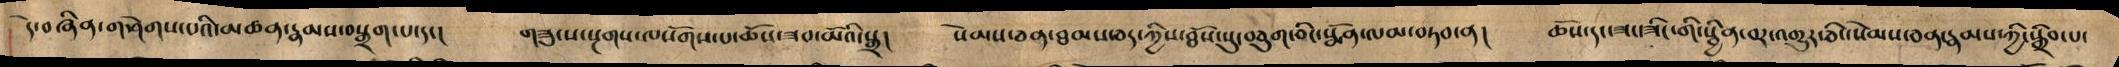དེ་བཞིན་གཤེགས་པའི་མཚན་རྣམས་བསྒྲག་པ་དང། གཟུངས་སྔགས་ལསོགས་པ་ཆོས་ཟབ་མོའི་སྒྲ། སེམས་ཅན་ཐམས་ཅད་ཀྱིས་ཐོས་སུ་བཅུག་ཅིང་སྨོན་ལམ་བཏབ་ན། ཆོས་དང་ཟང་ཟིང་གི་སྦྱིན་བར་འགྱུར་ཅིང་སེམས་ཅན་རྣམས་ཀྱི་སྒྲིབ་པ་
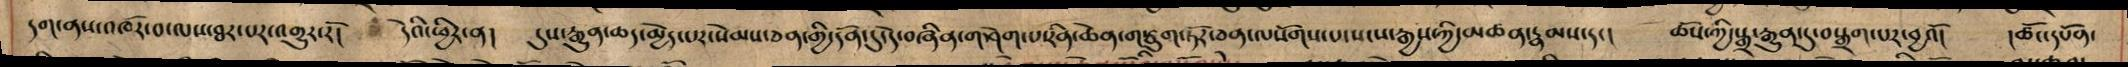དག་ནས་འཁོར་བ་ལས་ཐར་པར་འགྱུར་རོ། དེའི་ཕྱིར་ན། དུས་རྒྱུན་ཆད་མྱེད་པར་སེམས་ཅན་གྱི་དོན་དུ་དེ་བཞཱིན་གཤེགས་པ་རིན་ཆེན་གཟུག་ཏོར་ཅན་ལསོགས་པ་སངས་རྒྱས་ཀྱི་མཚན་རྣམས་དང། ཆོས་ཀྱི་སྒར་རྒྱུན་དུ་བསྒྲག་པར་བྱའོ། །ཚོང་དཔན་
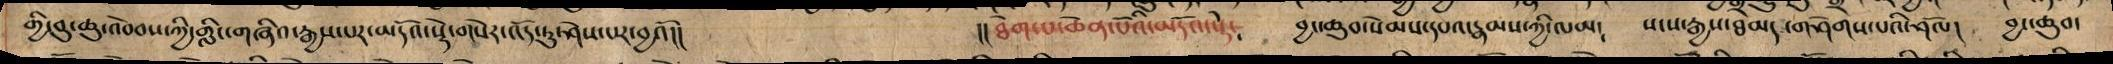གྱི་བུ་ཆུ་འབེབས་ཀྱི་གལིང་གཞིའ་རྒྱས་པར་མདོའ་སྡེ་གསེར་འོད་ཏུ་ཤེས་པར་བྱའོ།། །ཐེག་པ་ཆེན་པོའི་མདོའ་སྡེ་ བྱང་ཆུབ་སེམས་དཔའ་རྣམས་ཀྱི་ལམ༴ སངས་རྒྱས་ཐམད་གཤེགས་པའི་ཤོལ། བྱང་ཆུབ་
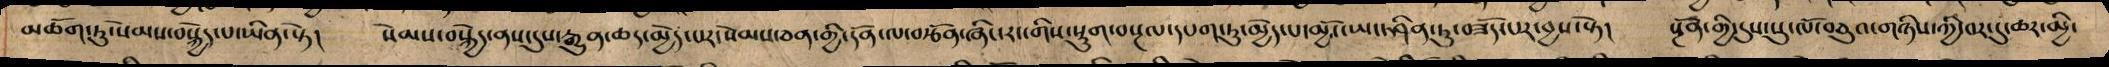མཆོག་ཏུ་སེམས་བསྐྱེད་པ་ཡིན་སྟེ། སེམས་བསྐྱེད་ནས་དུས་རྒྱུན་ཆད་མྱེད་པར་སེམས་ཅན་གྱི་དོན་ལ་བརྩོན་ཞིང་རང་གིས་སྡུག་བསྔལ་དཔག་དུ་མྱེད་པ་མྱོང་ཡང་ཤིན་ཏུ་བཟོད་པར་བྱས་སྟེ། སྔོན་གྱི་དུས་སུ་ལོ་བཅུའ་གཉིས་ཀྱི་བར་དུ་ཆར་མྱི་
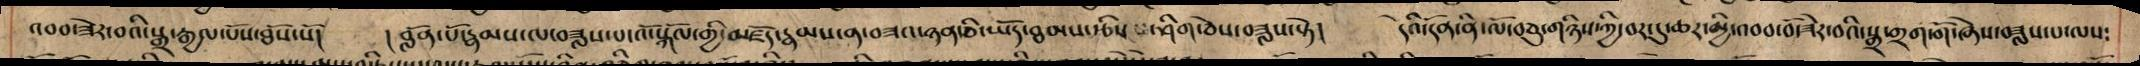འབབ་ཟེར་བའི་སྒར་རྒྱལ་པོས་ཐོས་སོ། །བློན་པོ་རྣམས་ལ་བཟླས་པ་འོ་སྐོལ་གྱི་མཛོད་རྣམས་ན་བཟའ་ཉན་ཅིང་ཡོད་ཐམས་རྩིས་ཤིག་ཅེས་བཟླས་སྟེ། དེའི་དོན་ནི་ལོ་བཅུ་གཉིས་ཀྱི་བར་དུ་ཆར་མྱི་འབབ་བ་ཟེར་བའི་བའི་སྒྲ་གྲག་གོ་ཞེས་བཟླ་པ་ལས༴
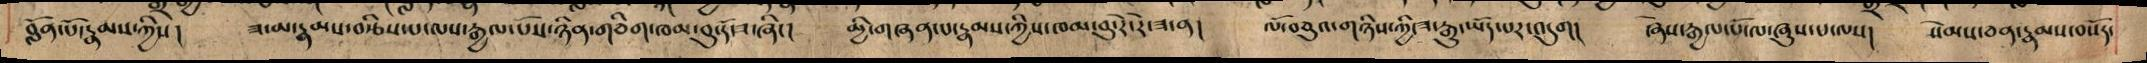བློན་པོ་རྣམས་ཀྱིས། ཟ་མ་རྣམས་བརྩིས་པ་ལས་རྒྱལ་པོས་ཉོན་གཅིག་ཁམ་བུ་དོ་ཟ་ཞིང། མྱི་གཞན་པ་རྣམས་ཀྱིས་ཁམ་བུ་རེ་རེ་ཟ་ན། ལོ་བཅུའ་གཉིས་ཀྱི་ཟ་རྒྱུ་ཡོད་པར་འདུག། ཞེས་རྒྱལ་པོ་ལ་ཞུས་པ་ལས། སེམས་ཅན་རྣམས་བསོད་
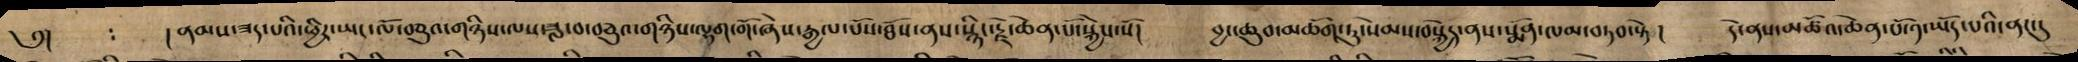༅། །ནམས་ཟད་པའི་ཕྱིར་ཡང་ལོ་བཅུ་གཉིས་ལས་ཟླ་བ་བཅུའ་གཉིས་ལྷག་གོ་ཞེས་རྒྱལ་པོས་ཐོས་ནས་སྙིང་རྗེ་ཆེན་པོ་སྐྱེས་སོ། བྱང་ཆུབ་མཆོག་ཏུ་སེམས་བསྐྱེད་ནས་སྨོན་ལམ་བཏབ་སྟེ། དེ་ནས་མཚོའ་ཆེན་པོ་ན་ཡོད་པའི་ནང་དུ
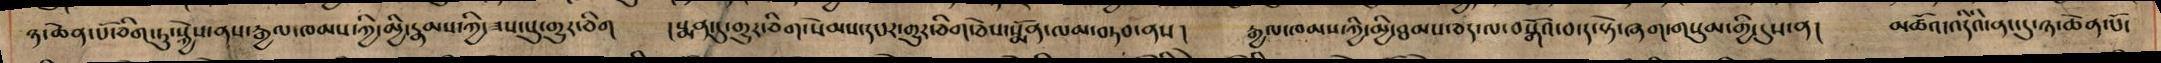ཉ་ཆེན་པོ་ཅིག་ཏུ་སྐྱེས་ནས་རྒྱལ་ཁམས་ཀྱི་མྱི་རྣམས་ཀྱི་ཟས་སུ་གྱུར་ཅིག །སྨན་དུ་གྱུར་ཅིག་སེམས་དཔར་གྱུར་ཅིག་ཅེས་སྨོན་ལམ་བཏབ་ནས། རྒྱལ་ཁམས་ཀྱི་མྱི་ཐམས་ཅད་ལ་བསྒོའ་བ་ད་སྟེ་ཞག་གསུམ་གྱི་དུས་ན། མཚོའ་འདིའི་ནང་དུ་ཉ་ཆེན་པོ་
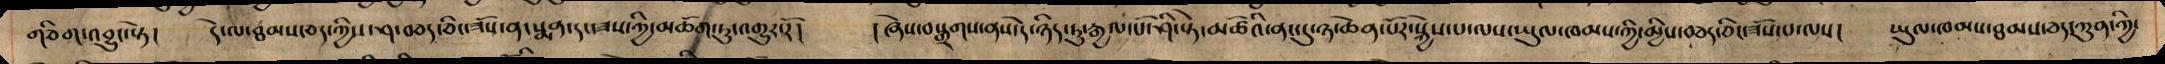གཅིག་འབྱུང་སྟེ། དེ་ལ་ཐམས་ཅད་ཀྱིས་ཤ་བཅད་ཅིང་ཟོས་ན་སྨན་དང་ཟས་ཀྱི་མཆོག་ཏུ་འགྱུར་རོ། །ཞེས་བསྒྲགས་ནས་དེ་ཉིད་དུ་རྒྱལ་པོ་ཤི་སྟེ་མཚོའི་ནང་དུ་ཉ་ཆེན་པོར་སྐྱེས་པ་ལས་ཡུལ་ཁམས་ཀྱི་མྱིས་བཅད་ཅིང་ཟོས་པ་ལས། ཡུལ་ཁམས་ཐམས་ཅད་ཀུན་ཀྱི་
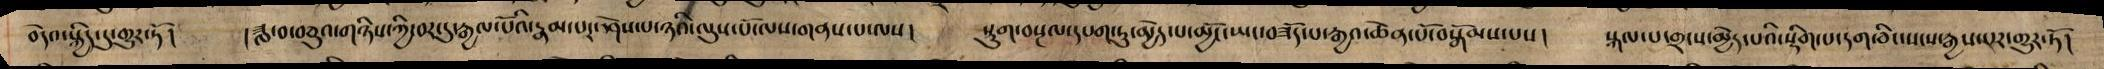བདེའ་སྐྱིད་དུ་གྱུར་ཏོ། །ཟླ་བ་བཅུའ་གཉིས་ཀྱི་བར་དུ་རྒྱལ་པོའི་རྣམ་པར་ཤེས་པ་ཉའི་ལུས་པོ་ལས་གནས་པ་ལས། སྡུག་བསྔལ་དཔག་ཏུ་མྱེད་པ་མྱོང་ཡང་བཟོད་པ་རྒྱའ་ཆེན་པོ་བསྒོམས་པས། སྐལ་བ་གྲངས་མྱེད་པའི་སྡིག་པ་དག་ཅིང་སངས་རྒྱས་པར་གྱུར་ཏོ།
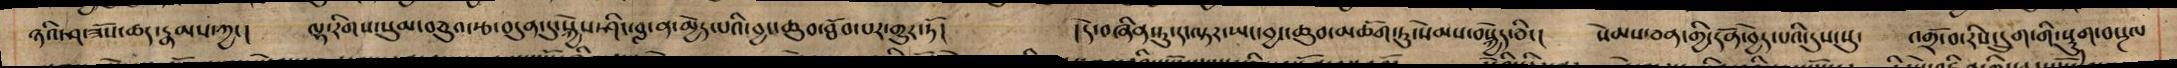ཉའི་ཤ་ཟོས་ཆད་རྣམས་ཀྱང། ལྷ་རིགས་སུམ་བཅུའ་རྩ་བདུན་དུ་སྐྱེས་ཤིང་བླ་ན་མྱེད་པའི་བྱང་ཆུབ་ཐོབ་པར་གྱུར་ཏོ། །དེ་བཞིན་ཏུ་ད་ལྟར་ཡང་བྱང་ཆུབ་མཆོག་ཏུ་སེམས་བསྐྱེད་ཅིང། སེམས་ཅན་གྱི་དོན་བྱེད་པའི་དུས་སུ། འགྲོ་བ་རིས་དྲུག་གི་སྡུག་བསྔལ
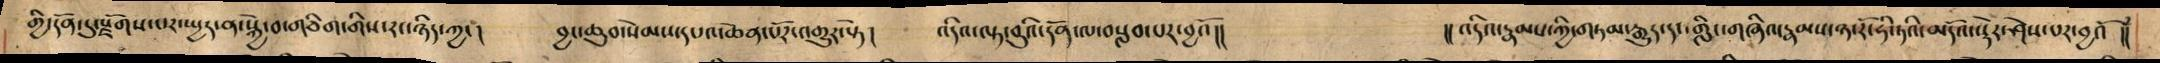གྱི་དོན་དུ་སྫོགས་པར་སྤྱད་ན་སྐྱེ་བ་གཅིག་གིས་རང་ཉིད་ཀྱང། བྱང་ཆུབ་སེམས་དཔའ་ཆེན་པོར་འགྱུར་སྟེ། འདིའ་ལྟ་བུའི་དོན་ལ་བསླབ་པར་བྱའོ།། །།འདིའ་རྣམས་ཀྱི་གཏམ་རྒྱུད་དང་གླིང་གཞིའ་རྣམས་ཉ་རོ་ཧི་ཏའི་མདོའ་སྡེར་ཤེས་པར་བྱའོ །།
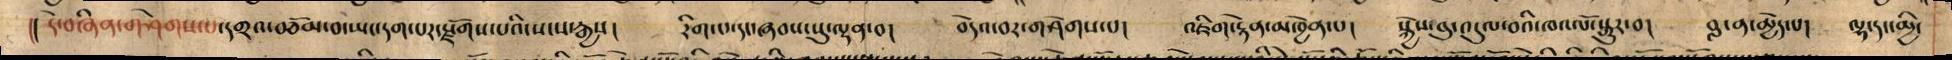།། དེ་བཞིན་གཤེགས་པདགྲའ་བཅོམ་བ་ཡང་དག་པར་སྫོགས་པའི་སངས་རྒྱས། རིག་པ་དང་ཞབས་སུ་ལྡན་བ། བདེའ་བར་གཤེགས་པ། འཇིག་རྟེན་མཁྱེན་པ། སྐྱེས་བུ་འདུལ་བའི་ཁ་ལོ་སྒྱུར་བ། བླ་ན་མྱེད་པ། ལྷ་དང་མྱི་
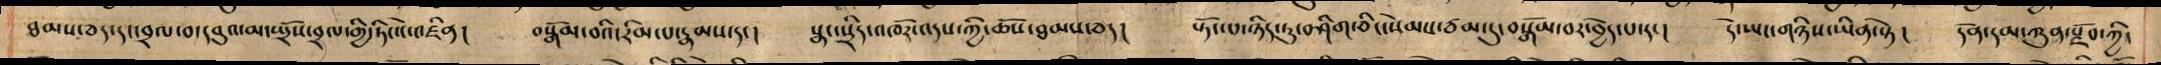ཐམས་ཅད་དང་བྲལ་བ་དབུའ་མ་སྤྲོས་བྲལ་གྱི་ཏིང་ངེ་འཛིན། བསྒོམ་བའི་རིམ་པ་རྣམས་དང། སྣང་སྲིད་འཁོར་འདས་ཀྱི་ཆོས་ཐམས་ཅད། སྟོང་པ་ཉིད་དུ་བཤིག་ཅིང་སེམས་ཙམ་དུ་བསྒོམ་བར་བྱེད་པ་དང། དེ་ཡང་གཉིས་ཡིན་སྟེ། དོན་དམ་ཀུན་སྫོབ་ཀྱི་
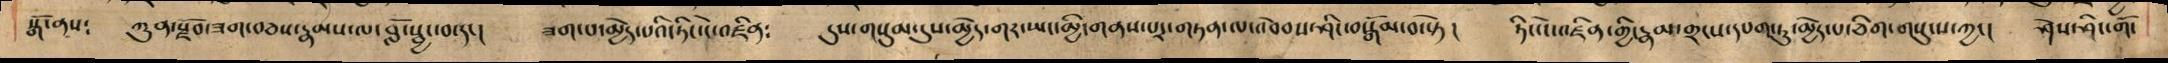སྒོ་ནས༴ ཀུན་སྫོབ་ཟག་བཅས་རྣམས་ལ་བློ་སྦྱོང་བ་དང། ཟག་པ་མྱེད་པའི་ཏིང་ངེ་འཛིན༴ དུས་གསུམ་དུས་མྱེད་གར་ཡང་མྱི་གནས་པར་གཏན་ལ་འབེབས་ཤིང་བསྒོམ་བ་སྟེ། ཏིང་ངེ་འཛིན་གྱི་རྣམ་གྲངས་དཔག་ཏུ་མྱེད་པ་ཅིག་གསུངས་ཀྱང། ཤེས་ཤིང་གོ་
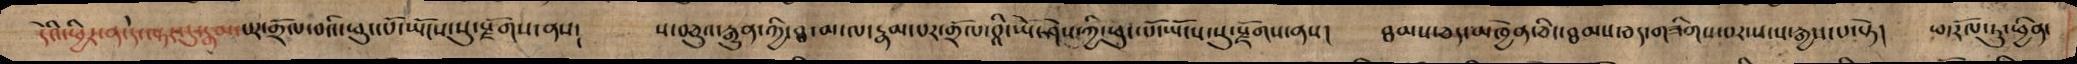དེའི་ཕྱིར་ན་དེ་ལྟར་དུ་རྣམ་པར་གྲོལ་བའི་ཕུང་པོ་ཡོངས་སུ་སྫོགས་ནས། ས་བཅུའ་རྒྱུན་ཀྱི་ཐ་མ་ལ་རྣམ་པར་གྲོལ་བི་ཡེ་ཤེས་ཀྱི་ཕུང་པོ་ཡོངས་སུ་སྫོགས་ནས། ཐམས་ཅད་མཁྱེན་ཅིང་ཐམས་ཅད་གཟིགས་པར་སངས་རྒྱས་པ་སྟེ། ཕ་རོལ་ཏུ་ཕྱིན་
